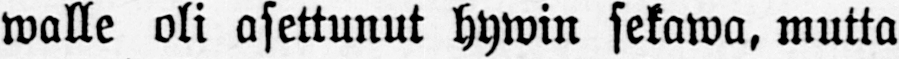walle oli asettunut hywin sekawa, mutta
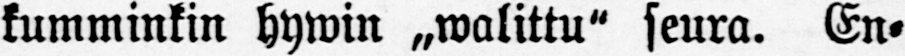kumminkin hywin „walittu" seura. En-
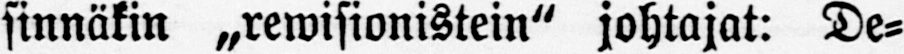sinnäkin „rewisionistein" johtajat: De-
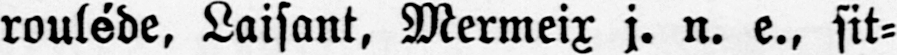rouléde, Laisant, Mermeix j. n. e., sit-
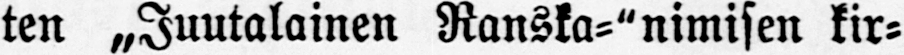ten „Juutalainen Ranska-"nimisen kir-
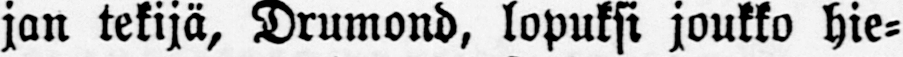jan tekijä, Drumond, lopuksi joukko hie-
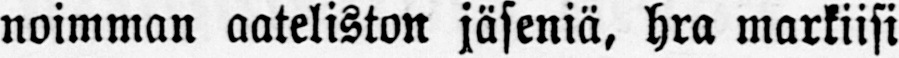noimman aateliston jäseniä, hra markiisi
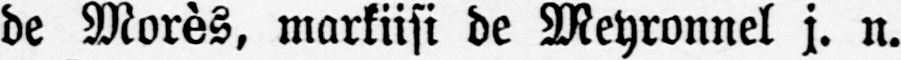de Morès, markiisi de Meyronnel j. n.
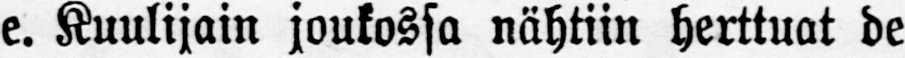e. Kuulijain joukossa nähtiin herttuat de
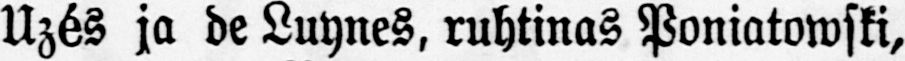Uzés ja de Luynes, ruhtinas Poniatowski,
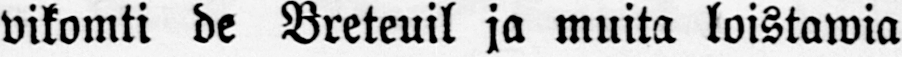vikomti de Breteuil ja muita loistawia
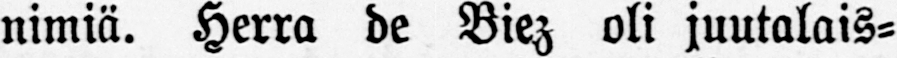nimiä. Herra de Biez oli juutalais-
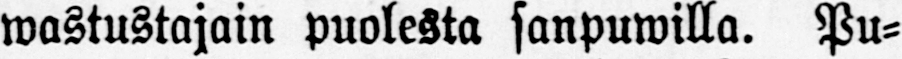wastustajain puolesta sanpuwilla. Pu-
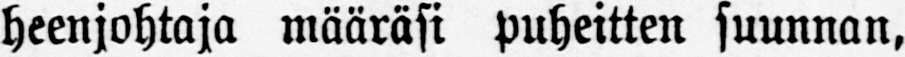heenjohtaja määräsi puheitten suunnan,
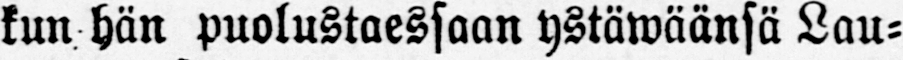kun hän puolustaessaan ystäwäänsä Lau-
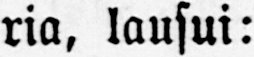ria, lausui:
